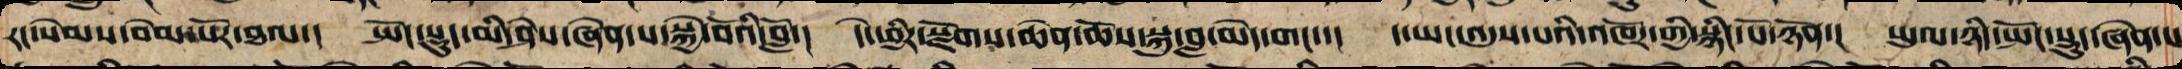རང་སེམས་བེམ་པོར་ཐལ།   སྤོང་སྡུད་མི་ཤེས་ཞེན་པ་སྐྱེ་བོའི་བློ་།   དེ་ཕྱིར་སྫོགས་ཆེན་ཆོས་སྐུ་བླ་མེད་གང་་།   ད་ཡང་འདུས་པའི་འཁོར་གྱི་སྙིང་པོ་ཉོན་།   ཡུལ་ཉིད་སྤོང་སྡུད་ཞེན་པ
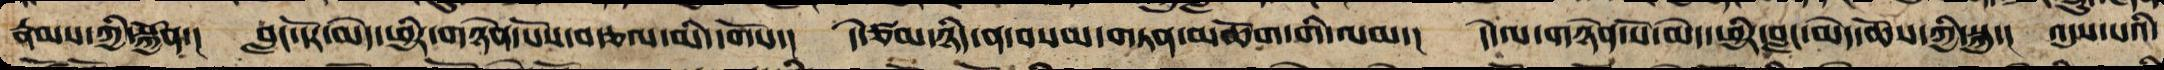རྣམས་ཀྱི་སྐྱོན་།   བླང་དོར་མེད་ཕྱིར་གཉེན་པོས་བཙལ་མི་དགོས།   དེ་ཙམ་ཉིད་ན་བསམ་གཏན་མཆོག་གི་ལམ་།   དེ་ལ་གཉེན་པོ་མེད་ཕྱིར་བླ་མེད་ཆོས་ཀྱི་སྐུ་།   འདུས་པའི་
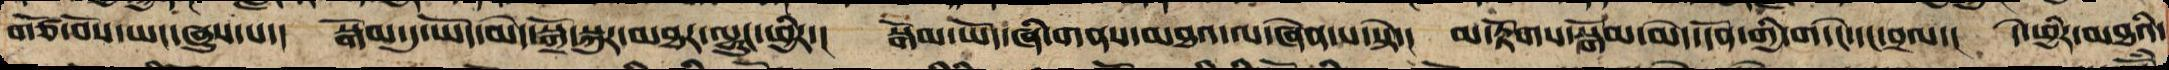གཙོ་བོས་ཡང་ཞུས་པ་།   སྒོམ་དུ་ཡོད་མེད་སྒྲོ་སྐུར་མཐར་ལྷུང་ཕྱིར་།   སྒོམ་ཡོད་ཞི་གནས་མཐའ་ལ་ཞེན་པ་སྟེ་།   མ་རྟོགས་སྒོམ་མེད་དོན་གྱི་གདེང་དང་བྲལ་།   དེ་ཕྱིར་མཐའི་
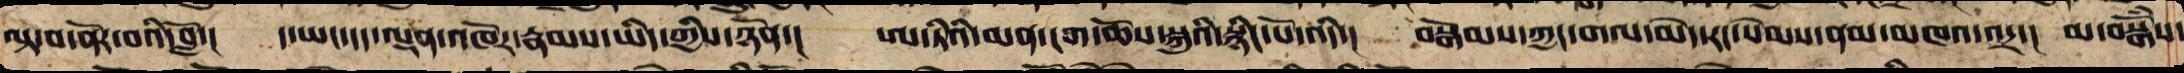བལྟ་བ་ནོར་བའི་བློ་།   ད་ཡང་དད་ལྡན་འཁོར་རྣམས་ཡིད་ཀྱིས་ཉོན་།   ཨ་ཏིའི་མན་ངག་ཆོས་སྐུའི་སྙིང་པོ་འདི་།   བསྒོམས་ཀྱང་གལ་མེད་རང་སེམས་ནམ་མཁའ་འདྲ་།   མ་བསྒོཾས་
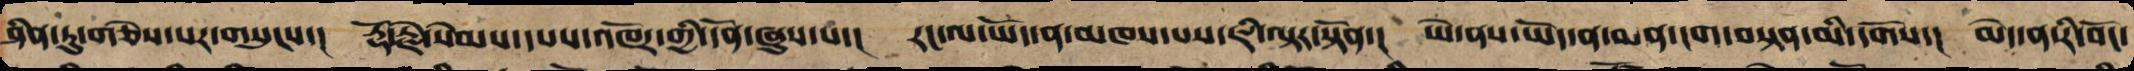ཤིན་ཏུ་གཅེས་པར་གསུངས་།   རྡོ་རྗེ་སེམས་དཔས་འཁོར་གྱི་དོན་ཞུས་པ་།   རང་ལ་ཡོད་ན་མཁས་པས་ཇི་ལྟར་སྟོན་།   ཡེ་ནས་ཡོད་ན་མན་ངག་བསྟན་མི་དགོས་།   མེད་ན་རི་བོང་
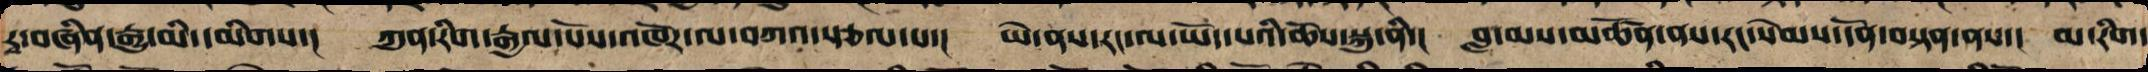རྭ་བཞིན་རྒྱུ་མི་དམིགས་།   ཀུན་རིག་རྒྱལ་པོས་འཁོར་ལ་བཀའ་སྩལ་པ་།   ཡེ་ནས་རང་ལ་ཡོད་པའི་ཆོས་སྐུ་ནི།   བླ་མས་མཚོན་ནས་རང་སེམས་དོན་བསྟན་ནས།   མ་རིག་
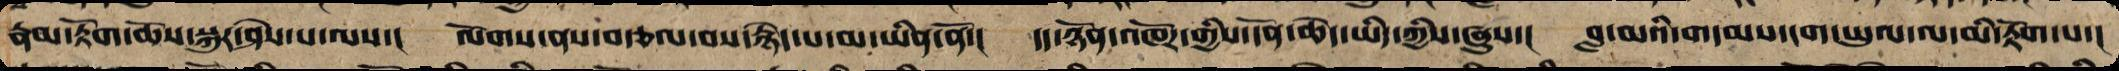རྣམ་རྟོག་ཆོས་སྐུར་ཤེས་པ་ལས་།  ལོགས་ནས་བརྩལ་བས་རྙེད་པ་མ་ཡིན་ནོ་།  དད་ཉོན་འཁོར་གྱིས་དོན་ཆེད་ཡིད་ཀྱིས་ཞུས་།  བླ་མའི་གདམས་ངག་ཡུལ་ལ་མི་རྟོག་པ་།
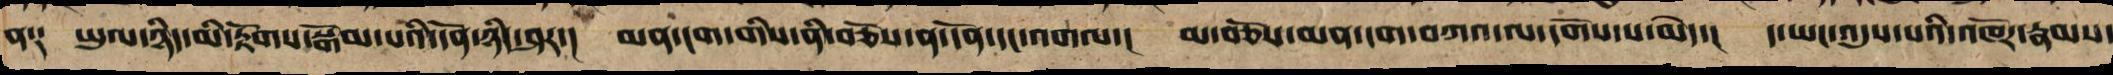ན༑   ཡུལ་ཉིད་མི་རྟོག་སྒོམ་པའི་དོན་ཉིད་ཤར་།   མན་ངག་གིས་ནི་བཅོས་ན་དོན་དང་འགལ་།    མ་བཅོས་མན་ངག་བཀའ་ལ་དགོས་པ་མེད་།    ད་ཡང་འདུས་པའི་འཁོར་རྣམས་
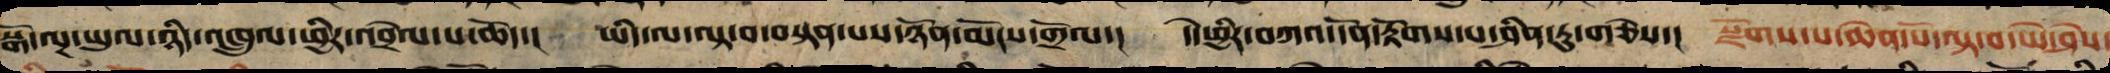སྒོ་ལྔ་ཡུལ་ཉིད་འཁྲུལ་ཕྱིར་འབྲེལ་པ་ཆོད་།    ཡིད་ལ་ལྟ་བ་བསྟན་པས་ཉོན་མོངས་གྲོལ་།    དེ་ཕྱིར་བཀའ་དོན་རྟོགས་པ་ཤིན་ཏུ་གཅེས་།    སྫོགས་པ་ཆེན་པོ་ལྟ་བ་ཡེ་ཤེས་
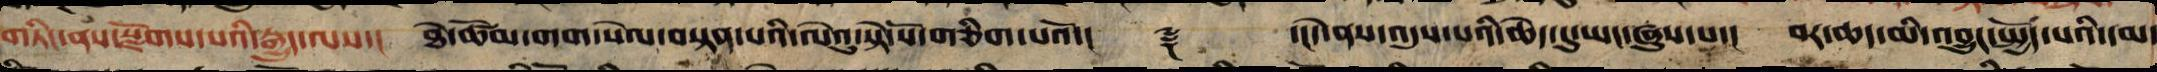གཏིང་ནས་སྫོགས་པའི་རྒྱུད་ལས་།   ཐེ་ཚོམ་གག་སེལ་བསྟན་པའི་ལེའུ་སྟེ་སོ་གཅིག་པའོ་།།    ༈     ་།དེ་ནས་འདུས་པའི་ཆེད་དུ་ཡང་ཞུས་པ་།   བར་ཆད་མི་འབྱུང་སྤྱོད་པའི་དམ་
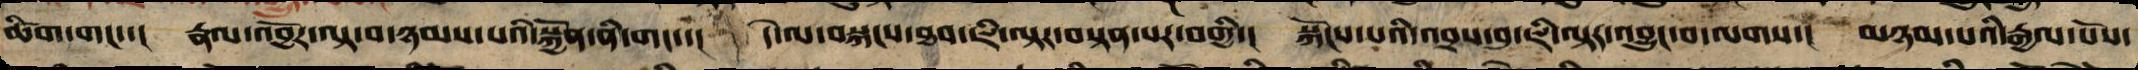ཚིག་གང་་།    རྣལ་འབྱོར་ལྟ་བ་ཉམས་པའི་སྐྱོན་ནི་གང་།    དེ་ལ་བསྐངས་ཐབ་ཇི་ལྟར་བསྟན་པར་བགྱི་།    སྐོངས་པའི་འབྲས་བུ་ཇི་ལྟར་འབྱུང་བ་ལགས་།    མཉམ་པའི་རྒྱལ་པོས་
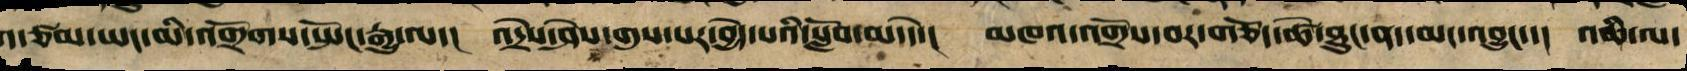ག་ཙམ་ཡང་མི་འགྲོགས་སྤང་རྒྱུ་ལ་།   འདྲེས་ཤེས་གུས་པར་བྱེད་པའི་སློབ་མ་དེ་།   མཁའ་འགྲོས་བར་གཅོད་ཚེ་ཐུང་ནད་མང་འབྱུང་་།   འཆི་ལ་
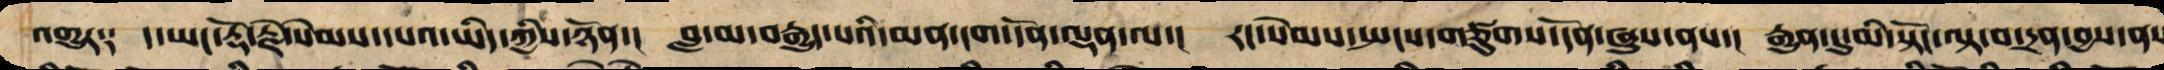འགྱུར༑   ད་ཡང་རྡོ་རྗེ་སེམས་དཔའ་ཡིད་ཀྱིས་ཉོན་།    བླ་མ་བརྒྱུད་པའི་མན་ངག་དོན་ལྡན་ལ་།    རང་སེམས་སྤངས་གཙུགས་དོན་ཞུས་ནས་།  རྒྱུན་དུ་མི་སྟོང་ལྟ་བ་དྲན་བྱས་ན་
